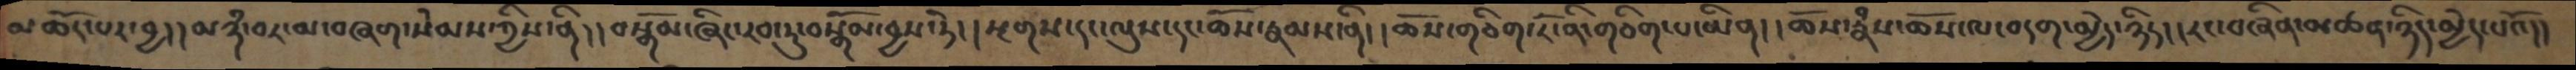མཆོད་པར་བྱ། །མཉཾ་བར་མ་བཞག་སེམས་ཀྱིས་ནི། །བསྒོམ་ཞིང་རབ་ཏུ་བསྒོམ་བྱས་ཏེ། །སྔགས་དང་ལུས་དང་ཆོས་རྣམས་ནི། །ཆོས་གཅིག་རོ་ནི་གཅིག་པ་ཡིན། །ཆོས་རྣཾས་ཆོས་ལ་བདག་མྱེད་ཉིད། །རང་བཞིན་མཚན་ཉིད་མྱེད་པའོ།།
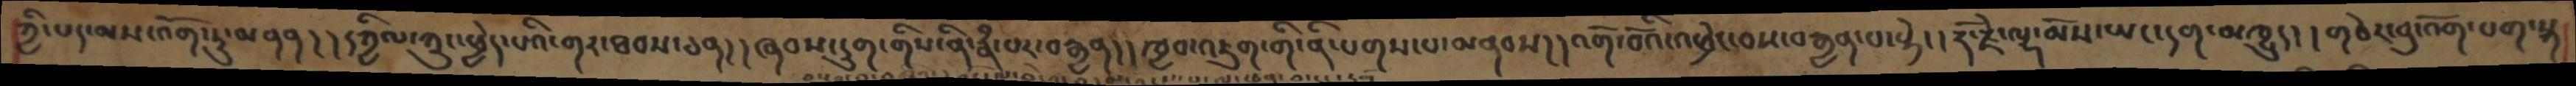ཀྱི་པད་མས་འོག་ཏུ་མནན།།དཀྱིལ་ཀྲུང་ཕྱེད་པའི་གར་ཐབས་ཅན།།ཞབས་དྲུག་གིས་ནི་རྣཾ་པར་བརྒྱན།།ཁྱབ་འཇུག་གི་ནི་པགས་པ་མནབས།།འགོ་བའི་འཕྲེང་བས་བརྒྱན་པ་སྟེ།།  རྡོ་རྗེ་ལྷ་མོས་ཡང་དག་མཁྱུད།། གཅེར་བུ་འོག་པག་སྒ
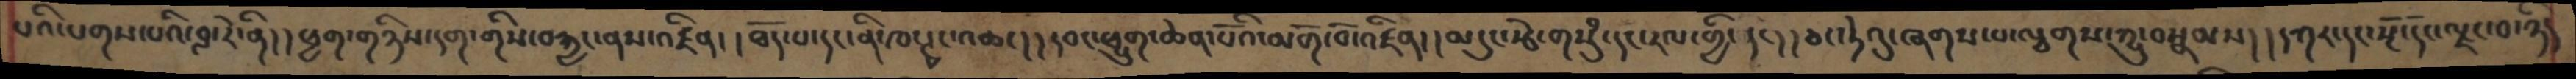པའི་པགས་པའི་བླ་རེ་ནི། །ཕྱག་གཉིས་དག་གིས་བརྐྱང་ནས་འཛིན། །ཐོད་པ་དང་ནི་ཁ་ཊྭང་འཆང་། །དབང་ཕྱུག་ཆེན་པོའི་མགོ་བོ་འཛིན། །མདུང་རྩེ་གསུཾ་དང་རལ་གྱི་དང། །ཅང་ཏེའུ་ཞགས་པ་ལྕགས་ཀྱུ་བསྣམས། །དཀར་དང་སྔོ་དང་ལྗང་བ་ཉིད
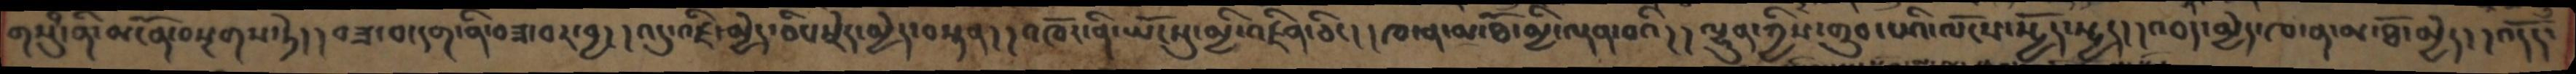གསུཾ་ནི་མངོན་བསྔགས་ཏེ། །བཟ་བ་དག་ནི་བཟ་བར་བྱ། །འདུ་འཛི་མྱེད་ཅིང་སྲེད་མྱེད་བསྟན། །འཁོར་ནི་ཡོངསུ་མྱི་འཛིན་ཅིང། །ཁ་ན་མ་ཐོ་མྱི་ལྡན་བའི། །ལྷུན་ཀྱིས་གྲུབ་པའི་ལོངས་སྤྱོད་སྤྱད། །འབད་མྱེད་ཁ་ན་མ་ཐོ་མྱེད། །འདོད་
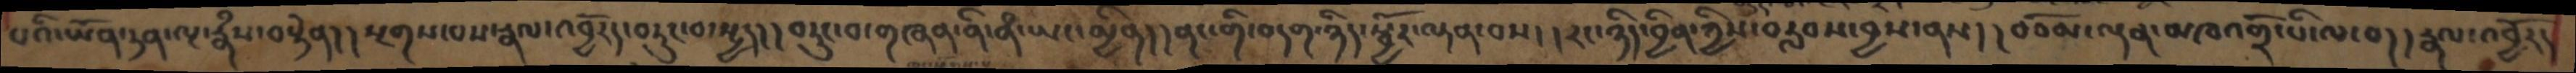པའི་ཡོན་ཏན་ལྔ་རྣཾས་བསྟེན། །སྔགས་པས་རྣལ་འབྱོརད་བཏུང་བ་སྤྱད། །བཏུང་བ་གཞན་ནི་ནཾ་ཡང་མྱིན། །ནང་གི་བདག་ཉིད་སྦྱོར་ལྡན་བས། །རང་ཉིད་བྱིན་ཀྱིས་བརླབས་བྱས་ནས། །བཅོམ་ལྡན་མཁའགྲོ་པི་ལ་བ། །རྣལ་འབྱོརད
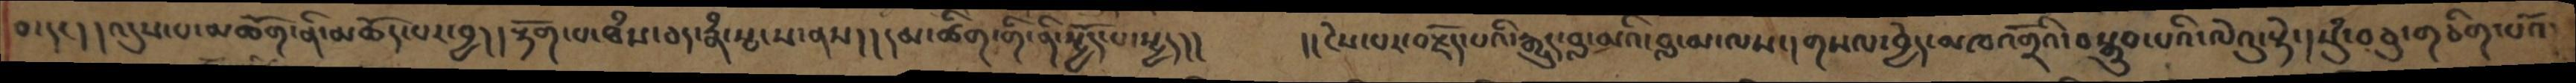བ་དང། །འདུས་པ་མཆོག་ནི་མཆོད་པར་བྱ། །རྟོག་པ་ཐཾས་ཅད་རྣཾ་སྤངས་ནས། །དམ་ཚིམ་གི་ནི་སྤྱོད་པ་སྤྱད།།  །།ངེས་པར་བརྗོད་པའི་རྒྱུད་བླ་མའི་བླ་མ་ལས་།གསལ་བྱེད་མཁའགྲོའི་བསྒྲུབ་པའི་ལེའུ་སྟེ་། སུཾ་བཅུ་གཅིག་པའོ།
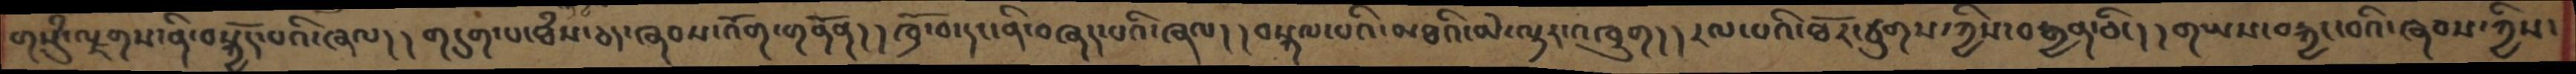གསུཾ་ལྗགས་ནི་བསྐྱོད་པའི་ཞལ། །གདུག་པ་ཐཾས་ཅད་ཞབས་འོག་གནོན། །ཁྲོ་བ་དང་ནི་བཞད་པའི་ཞལ། །བསྐལ་པའི་མཐའི་མེ་ལྟར་འཁྲུག། །རལ་པའི་ཐོར་ཙུགས་ཀྱིས་བརྒྱན་ཅིང། །གཡས་བརྐྱང་བའི་ཞབས་ཀྱིས་
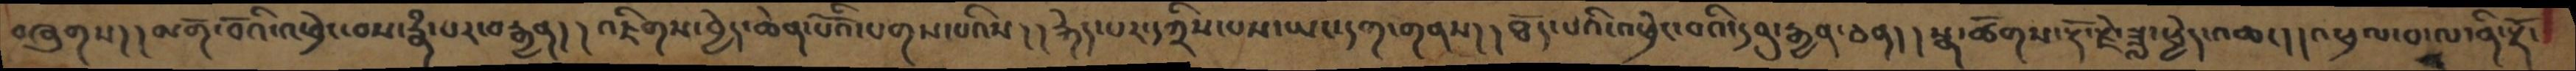བཞུགས། །མགོ་བོའི་འཕྲེང་བས་རྣཾ་པར་བརྒྱན།།འཇིགས་བྱེད་ཆེན་པོའི་པགས་པའིས།།རྐེད་པར་དཀྲིས་པས་ཡང་དག་གནས།།ཐོད་པའི་འཕྲེང་བའི་དབུ་རྒྱན་ཅན།།སྣ་ཚོགས་རྡོ་རྗེ་ཟླ་ཕྱེད་འཆང།།འཕྲལ་བ་ལ་ནི་རྡོ་
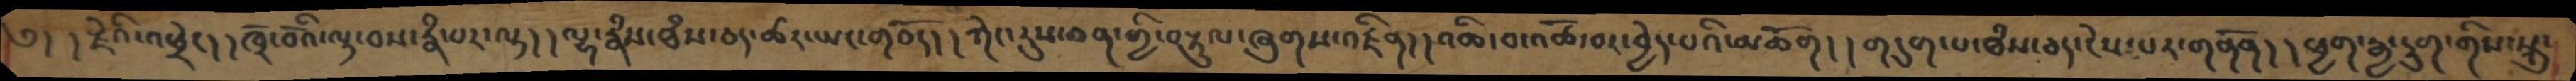༅། །རྗེའི་འཕྲེང། །ཁྲོ་བོའི་ལྟ་བས་རྣཾ་པར་ལྟ། །ལྷ་རྣཾས་ཐཾས་ཅད་ཚར་ཡང་གཅོད། །ཀེང་རུས་ཅན་གྱི་བརྟུལ་ཞུགས་འཛིན། །འཆི་བ་འཚོ་བར་བྱེད་པའི་མཆོག། །གདུག་པ་ཐཾས་ཅད་ངེས་པར་གནོན། །ཕྱག་རྒྱ་དྲུག་གིས་སྐུ་
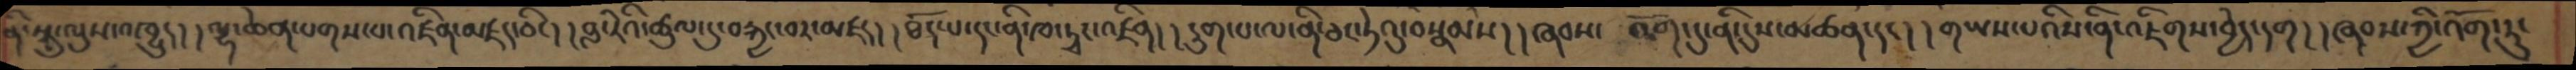ནི་སྐུ་ལུས་འཁྱུད།།ལྷ་ཆེན་པགས་པ་འཛིན་མཛད་ཅིང།།བླ་རེའི་ཚུལ་དུ་བརྐྱང་བར་མཛད། །ཐོད་པ་དང་ནི་ཁ་ཊྭང་འཛིན། །དྲུག་པ་ལ་ནི་ཅང་ཏེའུ་བསྣམས།།ཞབས་ འོག་དུ་ནི་དུས་མཚན་དང། །གཡས་པའིས་ནི་འཇིགས་བྱེད་དག། །ཞབས་ཀྱི་འོག་ཏུ་
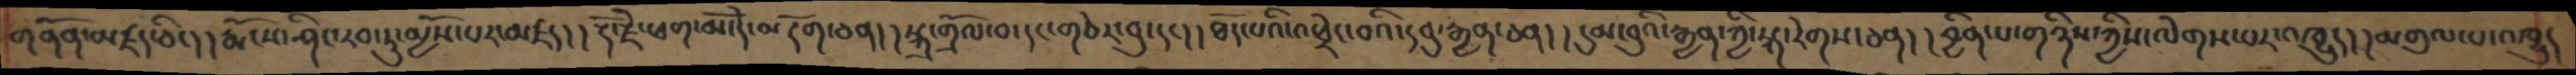གནོན་མཛད་ཅིང། །རྨོངས་ཤིང་རབ་ཏུ་མྱོས་པར་མཛད། །རྡོ་རྗེ་ཕག་མོ་དེ་མདོག་ཅན། །སྐྲ་གྲོལ་བ་དང་གཅེར་བུ་དང། །ཐོད་པའི་འཕྲེང་བའི་དབུ་རྒྱན་ཅན། །དུམ་བུའི་རྒྱན་ཀྱི་སྐ་རེགས་ཅན། །བྱིན་པ་གཉིས་ཀྱིས་ལེགས་པར་འཁྱུད། །མགུལ་པ་འཁྲུད
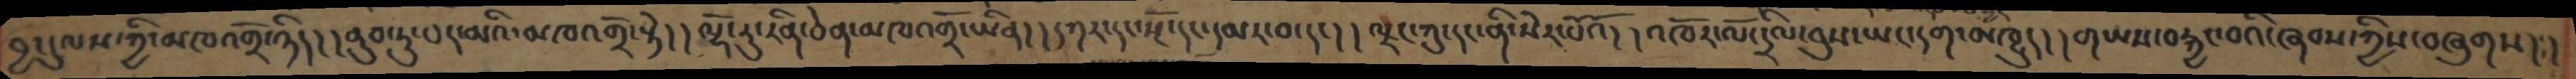བྱངདུལས་ཀྱི་མཁའགྲོ་ཉིད། །ནུབ་ཏུ་པད་མའི་མཁའགྲོ་སྟེ། །ལྷོ་རུ་རིན་ཅེན་མཁའགྲོ་ཡིན། །དཀར་དང་སྔོ་དང་དམར་བ་དང། །ལྗང་ཀུ་དང་ནི་སེར་པོའོ། །འཁོར་ལོ་དྲིལ་བུས་ཡང་དག་མཁྱུད། །གཡས་བརྐྱང་བའི་ཞབས་ཀྱིས་བཞུགས།།
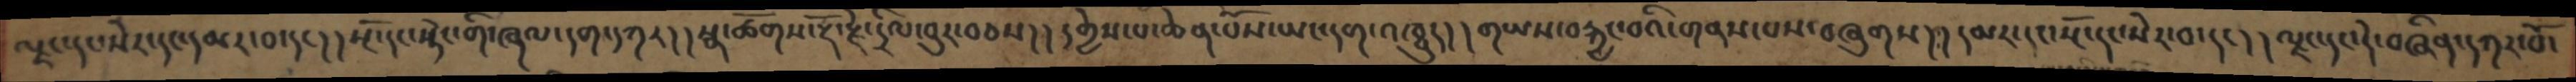ལྗང་དང་སེར་དང་དམར་བ་དང།།སྔོ་དང་སྡེང་གི་ཞལ་དག་དཀར།།སྣ་ཚོགས་རྡོ་རྗེ་དྲིལ་བུར་བཅས།།དགྱེས་ཆེན་པོས་ཡང་དག་འཁྱུད།།གཡས་བརྐྱང་བའི་གནས་པས་བཞུགས།།དམར་དང་སྔོ་དང་སེར་བ་དང།།ལྗང་དང་དེ་བཞིན་དཀར་པོ་
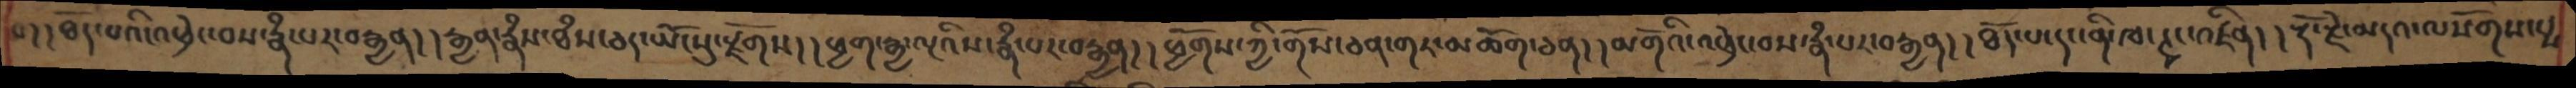པ། །ཐོད་པའི་འཕྲེང་བས་རྣཾ་པར་བརྒྱན། །རྒྱན་རྣཾས་ཐཾས་ཅད་ཡོངསུ་རྫོགས། །ཕྱག་རྒྱ་ལྔའིས་རྣཾ་པར་བརྒྱན། །ཕྱོགས་ཀྱི་གོས་ཅན་གར་མཆོག་ཅན། །མགོའི་འཕྲེང་བས་རྣཾ་པར་བརྒྱན། །ཐོད་པ་དང་ཁ་ཊྭང་འཛིན། །རྡོ་རྗེ་མདའ་ལསོགས་པ་
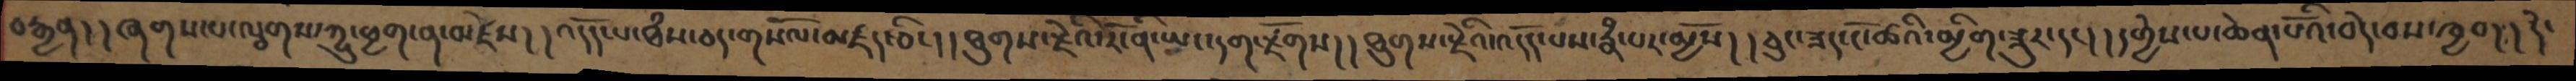བརྒྱན། །ཞགས་པ་ལྕགས་ཀྱུ་ཕྱག་ན་མཛེས། །འདོད་པ་ཐཾས་ཅད་གསོལ་མཛད་ཅིང། །ཐུགས་རྗེའི་རོ་ནི་ཡང་དག་རྫོགས། །ཐུགས་རྗེའི་འདོད་པས་རྣཾ་པར་མྱོས། །ཅུང་ཟད་ངོ་ཚའི་མྱིག་ཟུར་དང། །དགྱེས་པ་ཆེན་པོའི་བདེ་བས་ཁྱབ། །དེ་
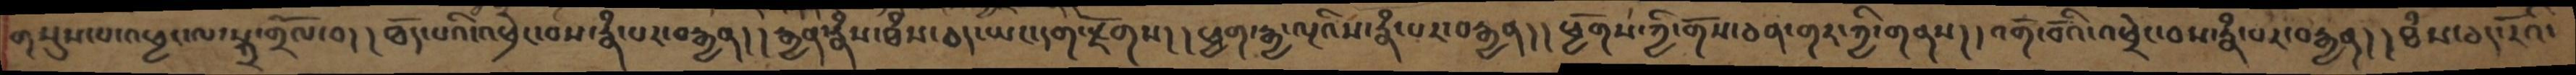གསུས་པ་འཕྱར་ལ་སྐྲ་གྲོལ་བ། །ཐོད་པའི་འཕྲེང་བས་རྣཾ་པར་བརྒྱན། །རྒྱན་རྣཾས་ཐཾས་ཅད་ཡང་དག་རྫོགས། །ཕྱག་རྒྱ་ལྔའིས་རྣཾ་པར་བརྒྱན། །ཕྱོགས་ཀྱི་གོས་ཅན་གར་ཀྱི་གནས། །འགོ་བོའི་འཕྲེང་བས་རྣཾ་པར་བརྒྱན། །ཐཾས་ཅད་རོའི་
